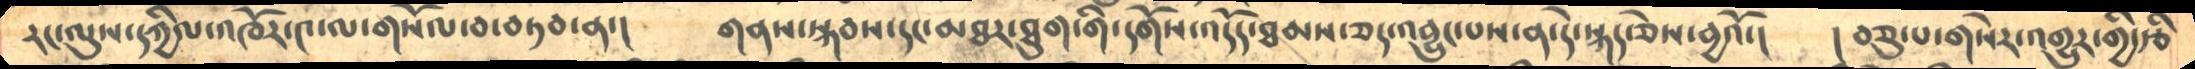རང་ལུས་དཀྱིལ་འཁོར་༤་ལ་གསོལ་བ་བཏབ་ན་།      གནས་སྐབས་དང་མཐར་ཐུག་གི་དགོས་འདོད་ཐམས་ཅད་འབྱུང་པས་ན་དེ་སྐད་ཅེས་བྱའོ་།      ། བཅུ་པ་གསེར་འགྱུར་གྱི་རྩི
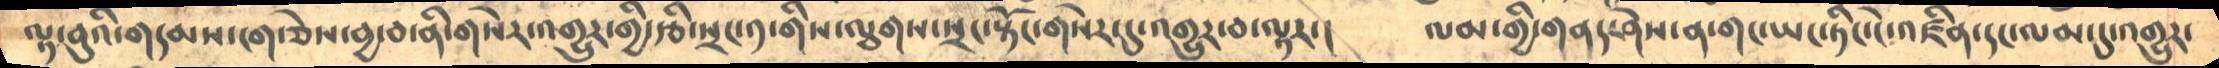ལྟ་བུའི་གདམས་ངག་ཅེས་བྱ་བ་ནི་གསེར་འགྱུར་གྱི་རྩི་སྲང་༡་གིས་ལྕགས་སྲང་སྟོང་གསེར་དུ་འགྱུར་བ་ལྟར་།      ལམ་གྱི་གནད་ཤེས་ན་གང་ཡང་ཏིང་ངེ་འཛིན་དང་ལམ་དུ་འགྱུར་
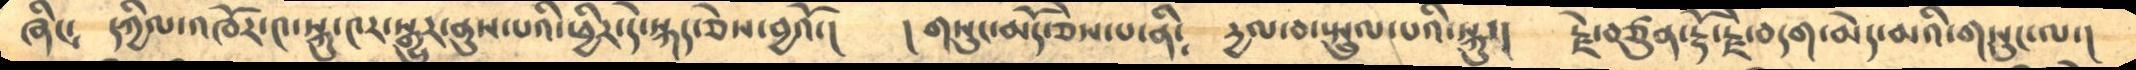ཞིང་      དཀྱིལ་འཁོར་༤་སྐུ་༤ར་སྒྱུར་ནུས་པའི་ཕྱིར་དེ་སྐད་ཅེས་བྱའོ་།     །  གསུང་མདོ་ཅེས་པ་ནི༴      དྱལ་བ་སྤྲུལ་པའི་སྐུ་།    རྗེ་བཙུན་རྡོ་རྗེ་བདག་མེད་མའི་གསུང་ལ་།
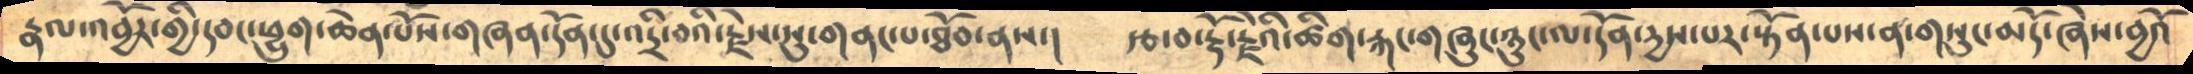རྣལ་འབྱོར་གྱི་དབང་ཕྱུག་ཆེན་པོས་གཞན་དོན་དུ་འདྲི་བའི་རྗེས་སུ་གནང་པ་ཐོབ་ནས་།    རྩ་བ་རྡོ་རྗེའི་ཚིག་རྐང་གཞུང་ཉུང་ལ་དོན་དྱས་པར་སྟོན་པས་ན་གསུང་མདོ་ཞེས་བྱའོ
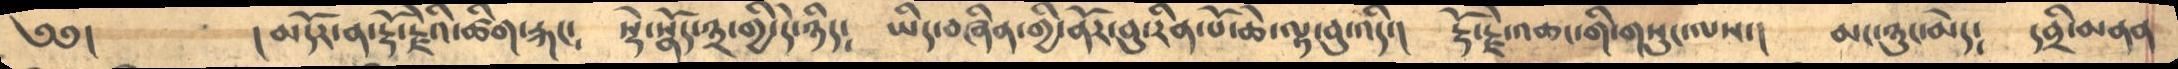༄༅།        །  མདོར་ན་རྡོ་རྗེའི་ཚིག་རྐང༴     སྡེ་སྣོད་༣་གྱི་དེ་ཉིད༴      ཡིད་བཞིན་གྱི་ནོར་བུ་རིན་པོ་ཆེ་ལྟ་བུ་འདི་།   རྡོ་རྗེ་འཆང་གི་གསུང་ལས་།     མང་ཉུང་མེད༴   དབྲི་མནན
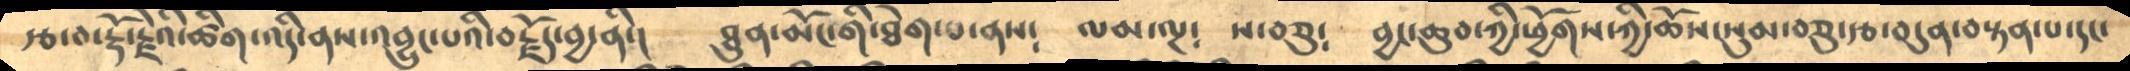རྩ་བ་རྡོ་རྗེའི་ཚིག་འདི་ནསའབྱུང་པའི་བརྗོད་བྱ་ནི་།    ཐུན་མོང་གི་ཐེག་པ་ནས༴     ལམ་ལྔ༴   ས་བཅུ༴    བྱང་ཆུབ་ཀྱི་ཕྱོགས་ཀྱི་ཆོས་སུམ་བཅུ་རྩ་བདུན་བསྟན་པ་དང་
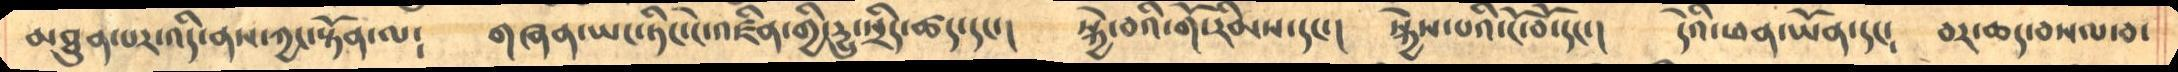མཐུན་པར་འདི་ནས་ཀྱང་སྟོན་ལ༴    གཞན་ཡང་ཏིང་ངེ་འཛིན་གྱི་དྱུ་སྲིད་ཚད་དང་།    སྐྱེ་བའི་གོ་རིམས་དང་།    སྐྱེས་པའི་ངོ་བོ་དང་།    དེའི་ཕན་ཡོན་དང༴    བར་ཆད་བསལ་བ་
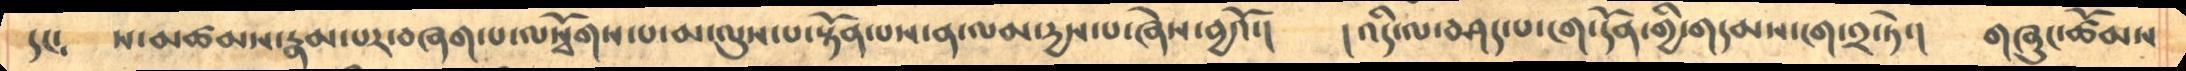དང༴    ས་མཚམས་རྣམ་པར་བཞག་པ་ལསྭོགས་པ་མ་ལུས་པ་སྟོན་པས་ན་ལམ་དྱས་པ་ཞེས་བྱའོ་།    ། འདི་ལ་བཤད་པ་ངག་དོན་གྱི་གདམས་ངག་༢་ཏེ་།    གཞུང་ཚོམས
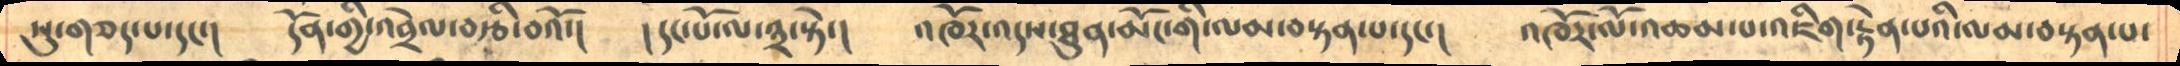སུ་གཅད་པ་དང་།     དོན་གྱི་འབྲེལ་བརྩི་བའོ་།     ། དང་པོ་ལ་༣་སྟེ་།    འཁོར་འདས་ཐུན་མོང་གི་ལམ་བསྟན་པ་དང་།    འཁོར་ལོ་འཆམ་པ་འཇིག་རྟེན་པའི་ལམ་བསྟན་པ་
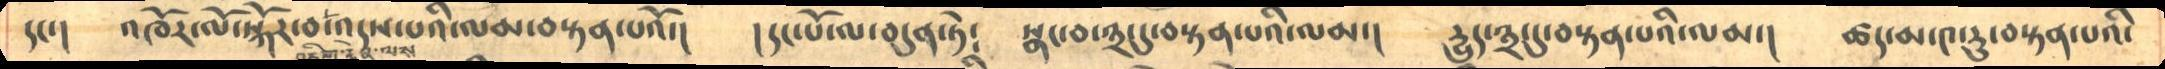དང་།  འཁོར་ལོ་སྐོར་བ་འཇིག་རྟེན་ལས་འདས་པའི་ལམ་བསྟན་པའོ་།  །དང་པོ་ལ་བདུན་ཏེ༴  སྣང་བ་༣་དུ་བསྟན་པའི་ལམ་།  དྱུད་༣་དུ་བསྟན་པའི་ལམ་།  ཚད་མ་༤་རུ་བསྟན་པའི་
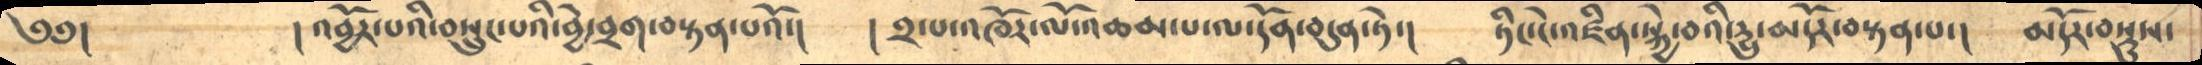༄༅།      ། འབྱོར་པའི་བསྲུང་པའི་བྱེ་བྲག་བསྟན་པའོ་།    ། ༢་པ་འཁོར་ལོ་འཆམ་པ་ལ་དོན་བདུན་ཏེ་།    ཏིང་ངེ་འཛིན་སྐྱེ་བའི་དྱུ་མདོར་བསྟན་པ་།   མདོར་བསྡུས་
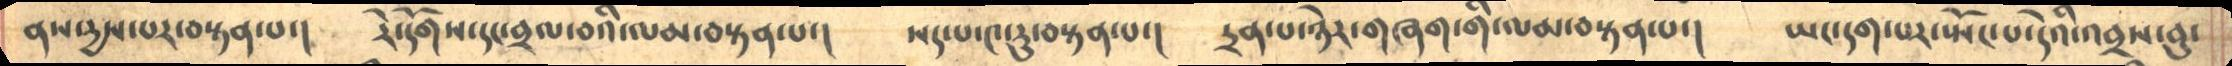ནས་དྱས་པར་བསྟན་པ་།    རེ་དོགས་དང་བྲལ་བའི་ལམ་བསྟན་པ་།   སད་པ་༤་རུ་བསྟན་པ་།   དྲན་པ་ཉེར་གཞག་གི་ལམ་བསྟན་པ་།   ཡང་དག་པར་སྤོང་པ་དེའི་འབྲས་བུ་
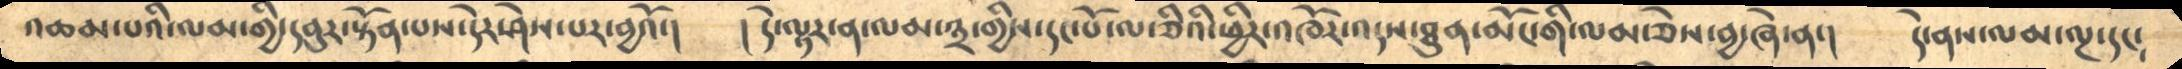འཆམ་པའི་ལམ་གྱི་དབུར་སྟོན་པས་དེར་ཤེས་པར་བྱའོ་།     ། དེ་ལྟར་ན་ལམ་༣་གྱིས་དང་པོ་ལ་ཅིའི་ཕྱིར་འཁོར་འདས་ཐུན་མོང་གི་ལམ་ཅེས་བྱ་ཞེ་ན་།   དེ་ནས་ལམ་ལྔ་དང༴
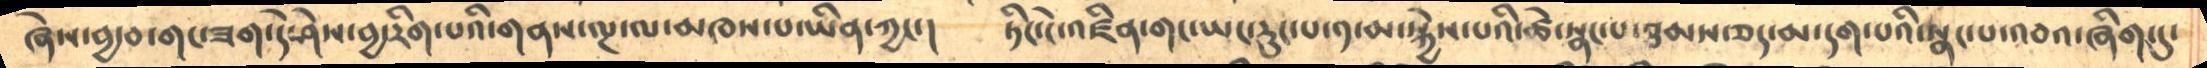ཞེས་བྱ་བ་གང་ཟག་དེ་ཤེས་བྱ་རིག་པའི་གནས་ལྔ་ལ་མཁས་པ་ཡིན་ཀྱང་།    ཏིང་ངེ་འཛིན་གང་ཡང་རུང་པ་༡་མ་སྐྱེས་པའི་ཚེ་སྣང་བ་ཐམས་ཅད་མ་དག་པའི་སྣང་པ་འབའ་ཞིག་དུ་
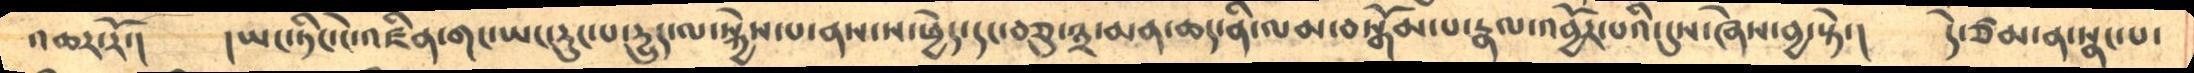འཆར་རོ་།      ། ཡང་ཏིང་ངེ་འཛིན་གང་ཡང་རུང་པ་དྱུད་ལ་སྐྱེས་པ་ནས་ས་ཕྱེད་དང་བཅུ་༣་མན་ཆད་ནི་ལམ་བསྒོམ་པ་རྣལ་འབྱོར་པའི་དུས་ཞེས་བྱ་སྟེ་།    དེ་ཙམ་ན་སྣང་པ་
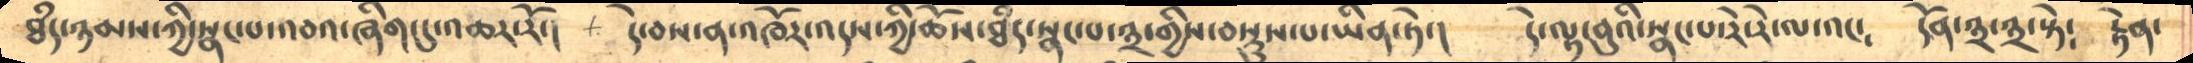ཐཾད་ཉམས་ཀྱི་སྣང་པ་འབའ་ཞིག་དུ་འཆར་རོ་།  དེ་བས་ན་འཁོར་འདས་ཀྱི་ཆོས་ཐཾད་སྣང་པ་༣་གྱིས་བསྡུས་པ་ཡིན་ཏེ་།  དེ་ལྟ་བུའི་སྣང་པ་རེ་རེ་ལ་འང༴  དོན་༣་༣་སྟེ༴  རྟེན་
